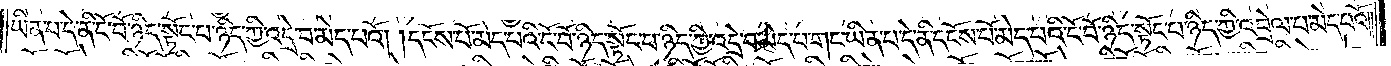ཡིན་པ་དེ་ནི་ངོ་བོ་ཉིད་སྟོང་པ་ཉིད་ཀྱི་འདྲེ་བ་མེད་པའོ། །དངོས་པོ་མེད་པའི་ངོ་བོ་ཉིད་སྟོང་པ་ཉིད་ཀྱི་འདྲེ་བ་མེད་པ་གང་ཡིན་པ་དེ་ནི་དངོས་པོ་མེད་པའི་ངོ་བོ་ཉིད་སྟོང་པ་ཉིད་ཀྱི་འབྲེལ་བ་མེད་པའོ། །
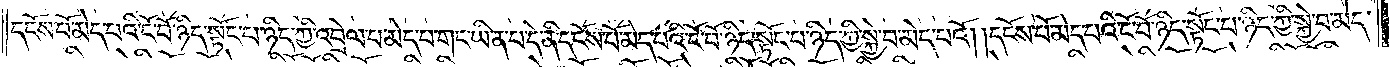དངོས་པོ་མེད་པའི་ངོ་བོ་ཉིད་སྟོང་པ་ཉིད་ཀྱི་འབྲེལ་པ་མེད་པ་གང་ཡིན་པ་དེ་ནི་དངོས་པོ་མེད་པའི་ངོ་བོ་ཉིད་སྟོང་པ་ཉིད་ཀྱི་སྐྱེ་བ་མེད་པའོ། །དངོས་པོ་མེད་པའི་ངོ་བོ་ཉིད་སྟོང་པ་ཉིད་ཀྱི་སྐྱེ་བ་མེད་
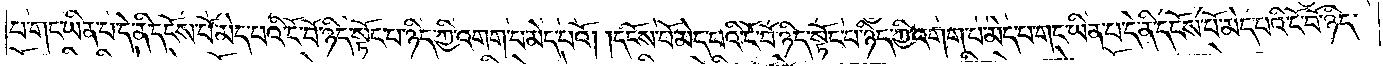པ་གང་ཡིན་པ་དེ་ནི་དངོས་པོ་མེད་པའི་ངོ་བོ་ཉིད་སྟོང་པ་ཉིད་ཀྱི་འགག་པ་མེད་པའོ། །དངོས་པོ་མེད་པའི་ངོ་བོ་ཉིད་སྟོང་པ་ཉིད་ཀྱི་འགག་པ་མེད་པ་གང་ཡིན་པ་དེ་ནི་དངོས་པོ་མེད་པའི་ངོ་བོ་ཉིད་
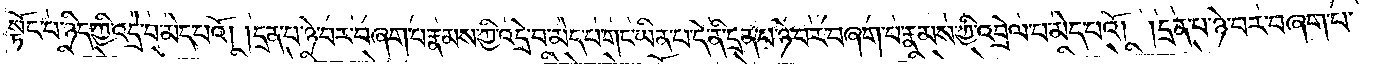སྟོང་པ་ཉིད་ཀྱི་འདྲེ་བ་མེད་པའོ། །དྲན་པ་ཉེ་བར་བཞག་པ་རྣམས་ཀྱི་འདྲེ་བ་མེད་པ་གང་ཡིན་པ་དེ་ནི་དྲན་པ་ཉེ་བར་བཞག་པ་རྣམས་ཀྱི་འབྲེལ་བ་མེད་པའོ། །དྲན་པ་ཉེ་བར་བཞག་པ་
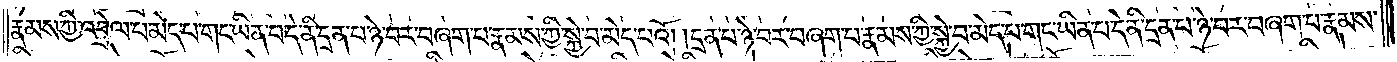རྣམས་ཀྱི་འབྲེལ་པ་མེད་པ་གང་ཡིན་པ་དེ་ནི་དྲན་བ་ཉེ་བར་བཞག་པ་རྣམས་ཀྱི་སྐྱེ་བ་མེད་པའོ། །དྲན་པ་ཉེ་བར་བཞག་པ་རྣམས་ཀྱི་སྐྱེ་བ་མེད་པ་གང་ཡིན་པ་དེ་ནི་དྲན་པ་ཉེ་བར་བཞག་པ་རྣམས་
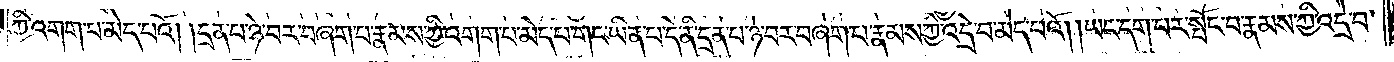ཀྱི་འགག་པ་མེད་པའོ། །དྲན་པ་ཉེ་བར་བཞག་པ་རྣམས་ཀྱི་འགག་པ་མེད་པ་གང་ཡིན་པ་དེ་ནི་དྲན་པ་ཉེ་བར་བཞག་པ་རྣམས་ཀྱི་འདྲེ་བ་མེད་པའོ། །ཡང་དག་པར་སྤོང་བ་རྣམས་ཀྱི་འདྲེ་བ་
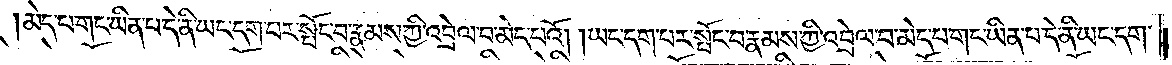མེད་པ་གང་ཡིན་པ་དེ་ནི་ཡང་དག་པར་སྤོང་བ་རྣམས་ཀྱི་འབྲེལ་པ་མེད་པའོ། །ཡང་དག་པར་སྤོང་བ་རྣམས་ཀྱི་འབྲེལ་པ་མེད་པ་གང་ཡིན་པ་དེ་ནི་ཡང་དག་
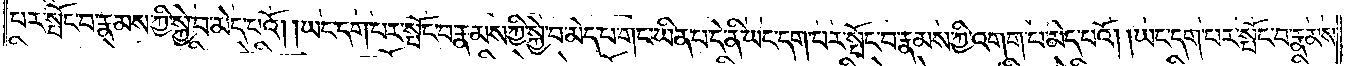པར་སྤོང་བ་རྣམས་ཀྱི་སྐྱེ་བ་མེད་པའོ། །ཡང་དག་པར་སྤོང་བ་རྣམས་ཀྱི་སྐྱེ་བ་མེད་པ་གང་ཡིན་པ་དེ་ནི་ཡང་དག་པར་སྤོང་བ་རྣམས་ཀྱི་འགག་པ་མེད་པའོ། །ཡང་དག་པར་སྤོང་བ་རྣམས་
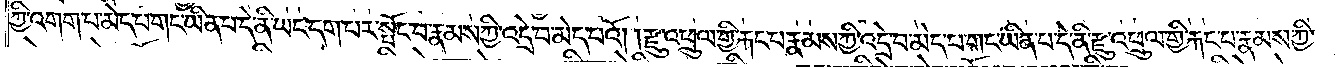ཀྱི་འགག་པ་མེད་པ་གང་ཡིན་པ་དེ་ནི་ཡང་དག་པར་སྤོང་བ་རྣམས་ཀྱི་འདྲེ་བ་མེད་པའོ། །རྫུ་འཕྲུལ་གྱི་རྐང་པ་རྣམས་ཀྱི་འདྲེ་བ་མེད་པ་གང་ཡིན་པ་དེ་ནི་རྫུ་འཕྲུལ་གྱི་རྐང་པ་རྣམས་ཀྱི་
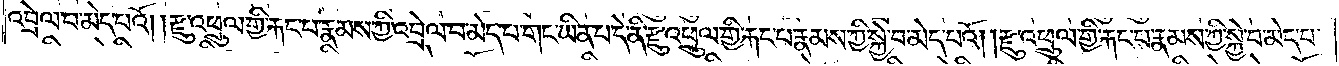འབྲེལ་བ་མེད་པའོ། །རྫུ་འཕྲུལ་གྱི་རྐང་པ་རྣམས་ཀྱི་འབྲེལ་བ་མེད་པ་གང་ཡིན་པ་དེ་ནི་རྫུ་འཕྲུལ་གྱི་རྐང་པ་རྣམས་ཀྱི་སྐྱེ་བ་མེད་པའོ། །རྫུ་འཕྲུལ་གྱི་རྐང་པ་རྣམས་ཀྱི་སྐྱེ་བ་མེད་པ་
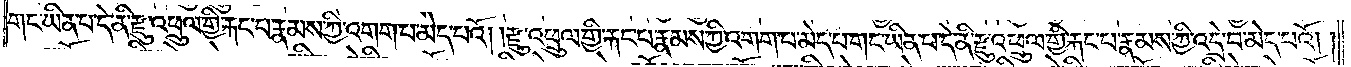གང་ཡིན་པ་དེ་ནི་རྫུ་འཕྲུལ་གྱི་རྐང་པ་རྣམས་ཀྱི་འགག་པ་མེད་པའོ། །རྫུ་འཕྲུལ་གྱི་རྐང་པ་རྣམས་ཀྱི་འགག་པ་མེད་པ་གང་ཡིན་པ་དེ་ནི་རྫུ་འཕྲུལ་གྱི་རྐང་པ་རྣམས་ཀྱི་འདྲེ་བ་མེད་པའོ། །
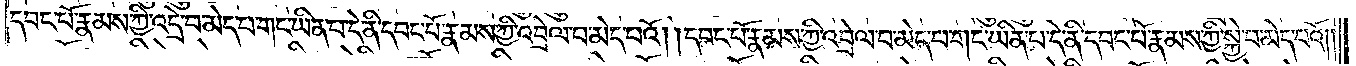དབང་པོ་རྣམས་ཀྱི་འདྲེ་བ་མེད་པ་གང་ཡིན་པ་དེ་ནི་དབང་པོ་རྣམས་ཀྱི་འབྲེལ་པ་མེད་པའོ། །དབང་པོ་རྣམས་ཀྱི་འབྲེལ་པ་མེད་པ་གང་ཡིན་པ་དེ་ནི་དབང་པོ་རྣམས་ཀྱི་སྐྱེ་བ་མེད་པའོ། །
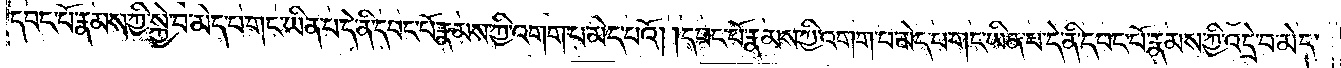དབང་པོ་རྣམས་ཀྱི་སྐྱེ་བ་མེད་པ་གང་ཡིན་པ་དེ་ནི་དབང་པོ་རྣམས་ཀྱི་འགག་པ་མེད་པའོ། །དབང་པོ་རྣམས་ཀྱི་འགག་པ་མེད་པ་གང་ཡིན་པ་དེ་ནི་དབང་པོ་རྣམས་ཀྱི་འདྲེ་བ་མེད་
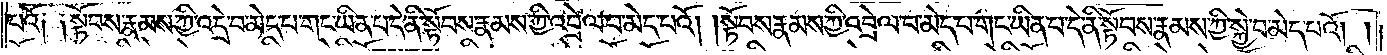པའོ༑ ༑སྟོབས་རྣམས་ཀྱི་འདྲེ་བ་མེད་པ་གང་ཡིན་པ་དེ་ནི་སྟོབས་རྣམས་ཀྱི་འབྲེལ་པ་མེད་པའོ། །སྟོབས་རྣམས་ཀྱི་འབྲེལ་བ་མེད་པ་གང་ཡིན་པ་དེ་ནི་སྟོབས་རྣམས་ཀྱི་སྐྱེ་བ་མེད་པའོ། །
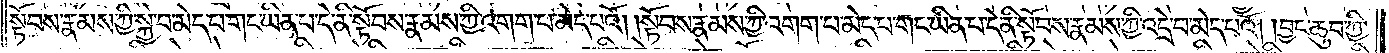སྟོབས་རྣམས་ཀྱི་སྐྱེ་བ་མེད་པ་གང་ཡིན་པ་དེ་ནི་སྟོབས་རྣམས་ཀྱི་འགག་པ་མེད་པའོ། །སྟོབས་རྣམས་ཀྱི་འགག་པ་མེད་པ་གང་ཡིན་པ་དེ་ནི་སྟོབས་རྣམས་ཀྱི་འདྲེ་བ་མེད་པའོ། །བྱང་ཆུབ་ཀྱི་
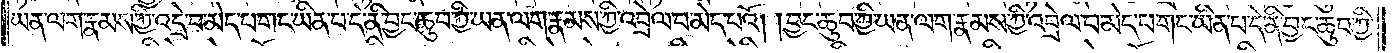ཡན་ལག་རྣམས་ཀྱི་འདྲེ་བ་མེད་པ་གང་ཡིན་པ་དེ་ནི་བྱང་ཆུབ་ཀྱི་ཡན་ལག་རྣམས་ཀྱི་འབྲེལ་བ་མེད་པའོ། །བྱང་ཆུབ་ཀྱི་ཡན་ལག་རྣམས་ཀྱི་འབྲེལ་བ་མེད་པ་གང་ཡིན་པ་དེ་ནི་བྱང་ཆུབ་ཀྱི་
